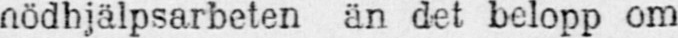nödhjälpsarbeten än det belopp om
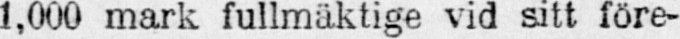1,000 mark fullmäktige vid sitt före-
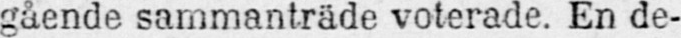gående sammanträde voterade. En de-
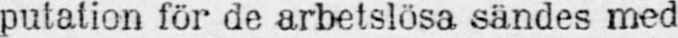putation för de arbetslösa sändes med
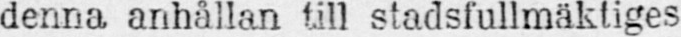denna anhållan till stadsfullmäktiges
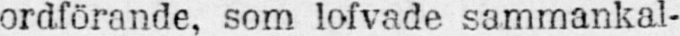ordförande, som lofvade sammankal-
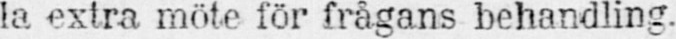la extra möte för frågans behandling.
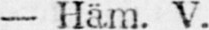— Häm. V.
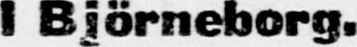I Björneborg.
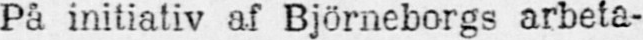På initiativ af Björneborgs arbeta-
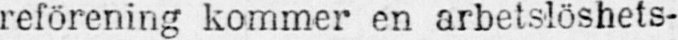reförening kommer en arbetslöshets-
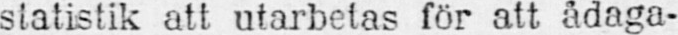statistik att utarbetas för att ådaga-
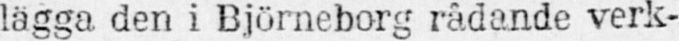lägga den i Björneborg rådande verk-
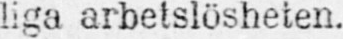liga arbetslösheten.
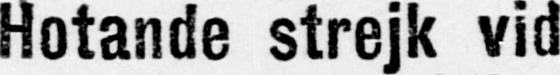Hotande strejk vid
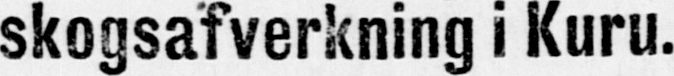skogsafverkning i Kuru.
